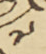༧
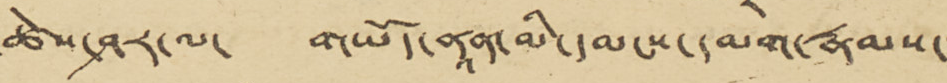ཚེས་ཤར་ལ་ གཡོད་ནཱན་མི་དམངས་དམག་རྣམས་་
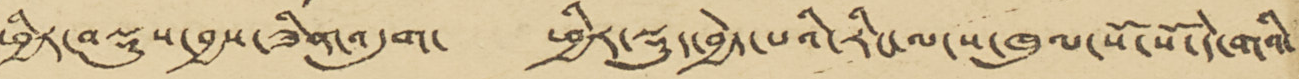ཕྱིར་བསྡུས་བྱས་ཟིན་འདུག་ ཕྱིར་སྡུད་བྱེད་པའི་རིང་ལ་ས་ཁུལ་སོ་སོ་དེ་གའི་
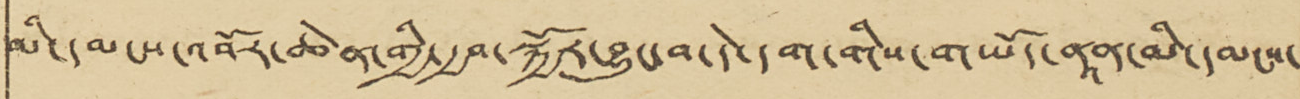མི་དམངས་འབོར་ཆེན་གྱི་རྒྱབ་སྐྱོར་བྱུང་བ་དེ་དག་གིས་གཡོད་ནཱན་མི་དམངས་
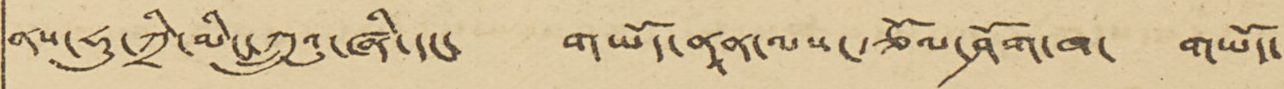ནས་ཧུ་ཀྲི་མིང་ཀྲུའུ་ཞི་དང་ གཡོད་ནཱན་ལས་རྩོལ་ཤོག་ཁ་ གཡོད་
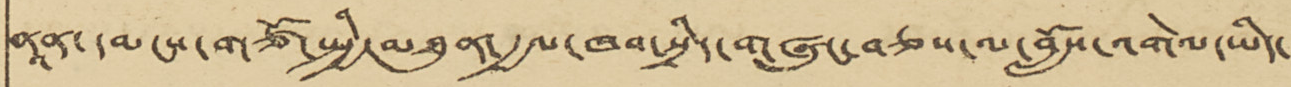ནཱན་དམངས་གཙོ་སྤྱི་མཐུན་རྒྱལ་ཁབ་སྲིད་གཞུང་བཅས་ལ་བློས་འགེལ་ཡིད་
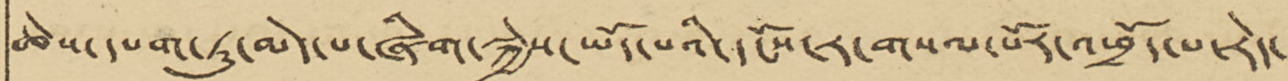ཆེས་དཔག་ཏུ་མེད་པ་ཞིག་སྐྱེས་ཡོད་པའི་དངོས་ར་གསལ་པོར་འཕྲོད་པ་རེད་
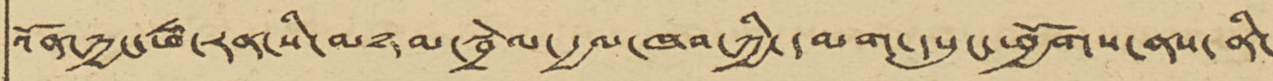འོན་ཀྱང་ཧྥ་རན་སི་མཉམ་སྦྲེལ་རྒྱལ་ཁབ་ཀྱི་དམག་དཔུང་ཕྱོགས་ནས་ནི་་
